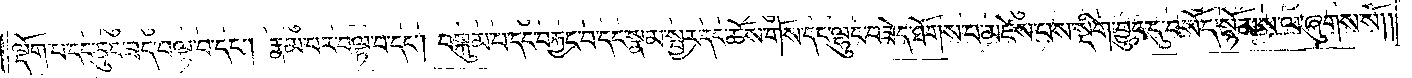ལྡོག་པ་དང་ཅུང་ཟད་བལྟ་བ་དང༌། རྣམ་པར་བལྟ་བ་དང༌། བསྐུམ་པ་དང་བརྐྱང་བ་དང་སྣམ་སྦྱར་དང་ཆོས་གོས་དང་ལྷུང་བཟེད་ཐོགས་པ་མཛེས་པས་སྡིག་བྱུང་དུ་བསོད་སྙོམས་ལ་ཞུགས་སོ། །
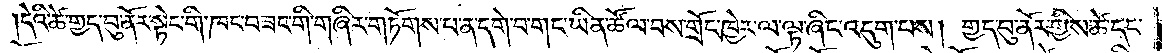དེའི་ཚེ་གྱད་བུ་ནོར་སྟེང་གི་ཁང་བཟང་གི་གཞིར་གཏོགས་པ་ན་དགེ་བ་གང་ཡིན་ཚོལ་བས་གྲོང་ཁྱེར་ལ་ལྟ་ཞིང་འདུག་པས། གྱད་བུ་ནོར་གྱིས་ཚེ་དང་
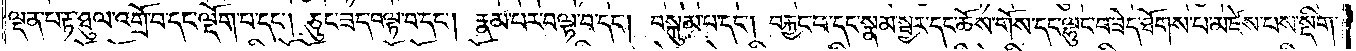ལྡན་པ་རྟ་ཐུལ་འགྲོ་བ་དང་ལྡོག་པ་དང༌། ཅུང་ཟད་བལྟ་བ་དང༌། རྣམ་པར་བལྟ་བ་དང༌། བསྐུམ་པ་དང༌། བརྐྱང་པ་དང་སྣམ་སྦྱར་དང་ཆོས་གོས་དང་ལྷུང་བཟེད་ཐོགས་པ་མཛེས་པས་སྡིག་
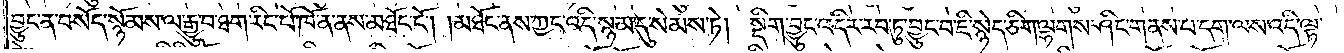བྱུང་ན་བསོད་སྙོམས་ལ་རྒྱུ་བ་ཐག་རིང་པོ་ཁོ་ན་ནས་མཐོང་ངོ༌། །མཐོང་ནས་ཀྱང་འདི་སྙམ་དུ་སེམས་ཏེ། སྡིག་བྱུང་འདིར་རབ་ཏུ་བྱུང་བ་ཇི་སྙེད་ཅིག་ལྷགས་ཤིང་གནས་པ་དག་ལས་འདི་ལྟ་
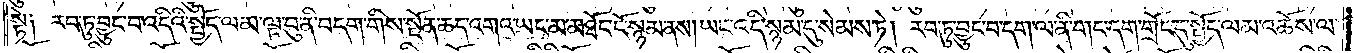སྟེ༑ རབ་ཏུ་བྱུང་བ་འདིའི་སྤྱོད་ལམ་ལྟ་བུ་ནི་བདག་གིས་སྔོན་ཆད་འགའ་ཡང་མ་མཐོང་ངོ་སྙམ་ནས། ཡང་འདི་སྙམ་དུ་སེམས་ཏེ། རབ་ཏུ་བྱུང་བ་དག་ལ་ནི་གང་དག་གྲོང་དུ་སྤྱོད་ལམ་འཆོས་ལ་
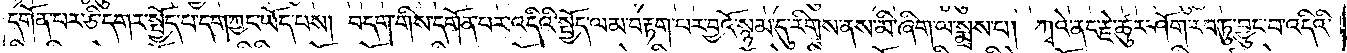དགོན་པར་ཅི་དགར་སྤྱོད་པ་དག་ཀྱང་ཡོད་པས། བདག་གིས་དགོན་པར་འདིའི་སྤྱོད་ལམ་བརྟག་པར་བྱའོ་སྙམ་དུ་རིགས་ནས་མི་ཞིག་ལ་སྨྲས་པ། ཀྭའེ་ནང་རྗེ་ཚུར་ཤོག་རབ་ཏུ་བྱུང་བ་འདིའི་
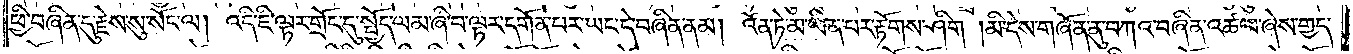ཕྱི་བཞིན་དུ་རྗེས་སུ་སོང་ལ། འདི་ཇི་ལྟར་གྲོང་དུ་སྤྱོད་ལམ་ཞི་བ་ལྟར་དགོན་པར་ཡང་དེ་བཞིན་ནམ། འོན་ཏེ་མ་ཡིན་པར་རྟོགས་ཤིག །མི་དེས་གཞོན་ནུ་བཀའ་བཞིན་འཚལ་ཞེས་གྱད་
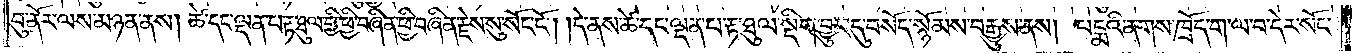བུ་ནོར་ལས་མཉན་ནས། ཚེ་དང་ལྡན་པ་རྟ་ཐུལ་གྱི་ཕྱི་བཞིན་ཕྱི་བཞིན་རྗེས་སུ་སོང་ངོ༌། །དེ་ནས་ཚེ་དང་ལྡན་པ་རྟ་ཐུལ་སྡིག་བྱུང་དུ་བསོད་སྙོམས་བརྒྱུས་ནས། པདྨའི་ནགས་ཁྲོད་ག་ལ་བ་དེར་སོང་
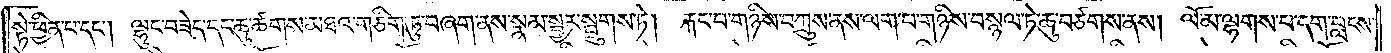སྟེ་ཕྱིན་པ་དང༌། ལྷུང་བཟེད་དང་ཆུ་ཚགས་མཐའ་གཅིག་ཏུ་བཞག་ནས་སྣམ་སྦྱར་སྦྲུགས་ཏེ།  རྐང་པ་གཉིས་བཀྲུས་ནས་ལག་པ་གཉིས་བསྙལ་ཏེ་ཆུ་བཙགས་ནས། ལོ་མ་ལྷགས་པ་དག་བླངས་
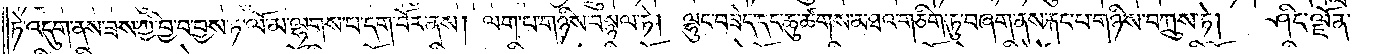ཏེ་འདུག་ནས་ཟས་ཀྱི་བྱ་བ་བྱས་ཏེ་ལོ་མ་ལྷགས་པ་དག་བོར་ནས། ལག་པ་གཉིས་བསྙལ་ཏེ། ལྷུང་བཟེད་དང་ཆུ་ཚགས་མཐའ་གཅིག་ཏུ་བཞག་ནས་རྐང་པ་གཉིས་བཀྲུས་ཏེ།  ཤིང་ལྗོན་
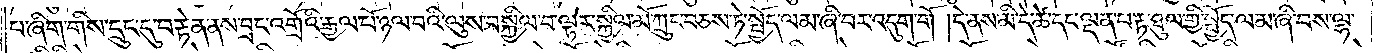པ་ཞིག་གིས་དྲུང་དུ་བརྟེན་ནས་བྲང་འགྲོའི་རྒྱལ་པོ་ཉལ་བའི་ལུས་བསྐྱིལ་བ་ལྟར་སྐྱིལ་མོ་ཀྲུང་བཅས་ཏེ་སྤྱོད་ལམ་ཞི་བར་འདུག་གོ །དེ་ནས་མི་དེ་ཚེ་དང་ལྡན་པ་རྟ་ཐུལ་གྱི་སྤྱོད་ལམ་ཞི་བས་ལྷ་
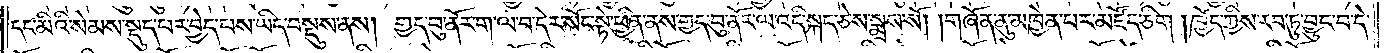དང་མིའི་སེམས་སྡུད་པར་བྱེད་པས་ཡིད་བསྡུས་ནས། གྱད་བུ་ནོར་ག་ལ་བ་དེར་སོང་སྟེ་ཕྱིན་ནས་གྱད་བུ་ནོར་ལ་འདི་སྐད་ཅེས་སྨྲས་སོ། །གཞོན་ནུ་མཁྱེན་པར་མཛོད་ཅིག །ཁྱོད་ཀྱིས་རབ་ཏུ་བྱུང་བ་དེ་
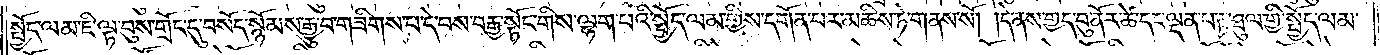སྤྱོད་ལམ་ཇི་ལྟ་བུས་གྲོང་དུ་བསོད་སྙོམས་རྒྱུ་བ་གཟིགས་པ་དེ་བས་བརྒྱ་སྟོང་གིས་ལྷག་པའི་སྤྱོད་ལམ་གྱིས་དགོན་པར་མཆིས་ཏེ་གནས་སོ། །དེ་ནས་གྱད་བུ་ནོར་ཚེ་དང་ལྡན་པ་རྟ་ཐུལ་གྱི་སྤྱོད་ལམ་
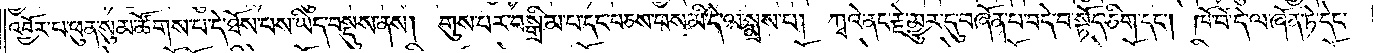འབྱོར་པ་ཕུན་སུམ་ཚོགས་པ་དེ་ཐོས་པས་ཡིད་བསྡུས་ནས། གུས་པར་བསྒྲིམ་པ་དང་བཅས་པས་མི་དེ་ལ་སྨྲས་པ། ཀྭའེ་ནང་རྗེ་མྱུར་དུ་བཞོན་པ་བདེ་བ་སྟོད་ཅིག་དང༌། ཁོ་བོ་དེ་ལ་ཞོན་ཏེ་དེང་
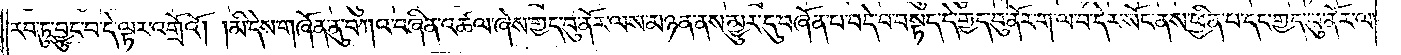རབ་ཏུ་བྱུང་བ་དེ་ལྟར་འགྲོའོ། །མི་དེས་གཞོན་ནུ་བཀའ་བཞིན་འཚལ་ཞེས་གྱད་བུ་ནོར་ལས་མཉན་ནས་མྱུར་དུ་བཞོན་པ་བདེ་བ་བསྟད་དེ་གྱད་བུ་ནོར་ག་ལ་བ་དེར་སོང་ནས་ཕྱིན་པ་དང་གྱད་བུ་ནོར་ལ་
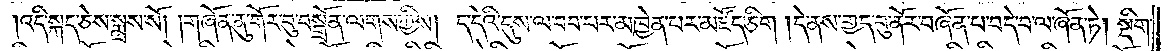འདི་སྐད་ཅེས་སྨྲས་སོ། །གཞོན་ནུ་གོར་བུ་བསྒྲོན་ལགས་ཀྱིས། ད་དེའི་དུས་ལ་བབ་པར་མཁྱེན་པར་མཛོད་ཅིག །དེ་ནས་གྱད་བུ་ནོར་བཞོན་པ་བདེ་བ་ལ་ཞོན་ཏེ། སྡིག་
